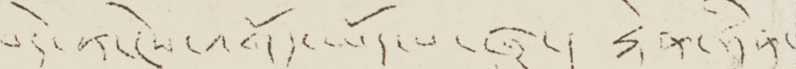བདེ་ན་ངེས་འགོད་ཡོད་པ་ཞུ། རྟེན་ཧིན་
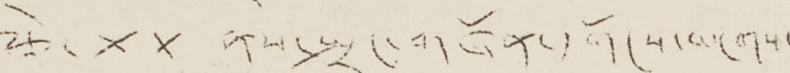རྩེ་ xx ནས་སྤྲང་གཞོན་དགོངས་མངགས་
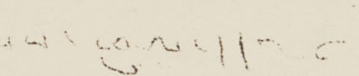པས་ཕུལ།།
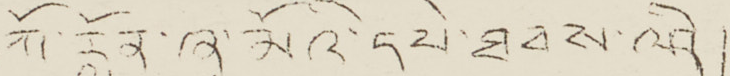།ཀོ་རློན་ཞྭ་མོའི་དཔེ་ཐབས་ལའི།
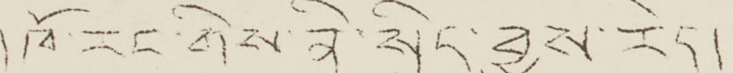།ཁོ་རང་གིས་ནི་སྲིད་བྱུས་རེད།
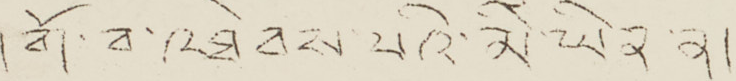།གོ་བ་འཐེབས་པའི་མི་ཡིན་ན།
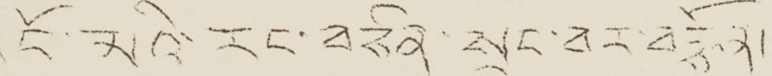།ངོ་མའི་རང་བཙན་སྲང་བར་བརྩོན།
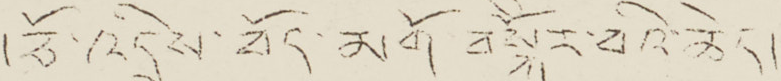།ཅོ་འདྲེས་བོད་མགོ བསྐོར་བའི་ཆེད།
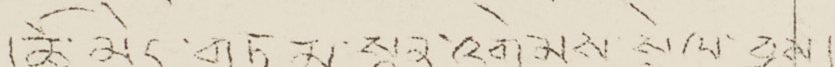།ཚོ་མེད་གཏམ་སྙན་འགྲེམས་སྤེལ་བྱས།
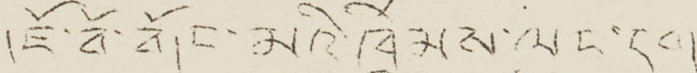།ཇོ་བོ་གོང་མའི་ཁྲིམས་ལུང་དག
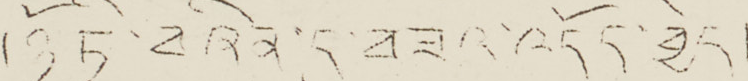།ཉོ་ཏི་བཞིན་དུ་བཟང་འདོད་བྱེད།
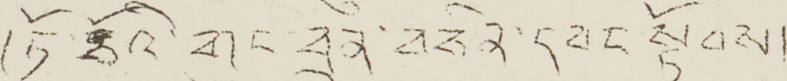།ཏོ་རྩོཨའི་གུང་བྲན་བཅིན་དབང་སྟོབས།
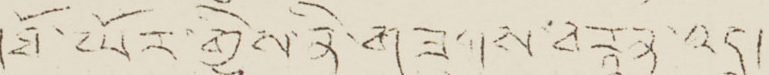།ཐོ་ཡོར་གྱིས་ནི་གཟུགས་བརྙན་འདྲ།
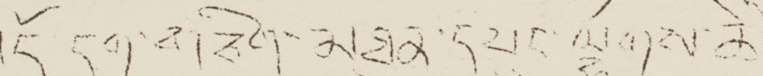།དོ་དྲག་གཅིག་མཐུན་དཔུང་ལྷགས་མེ་
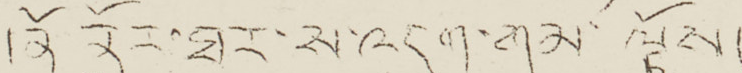།ནོ རོལ་ཐར་ས་འདུག་གམ་ལྟོས།
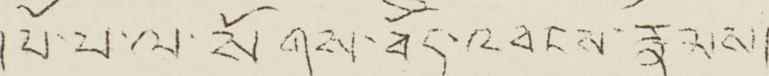།པོ་པ་ལ་སོགས་བོད་འབངས་རྣམས།
